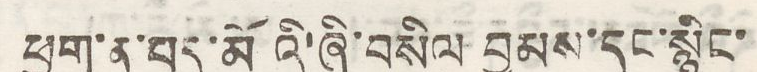ཕྱག་ན་པད་མོའི་ཞི་བསིལ བྱམས་དང་སྙིང་
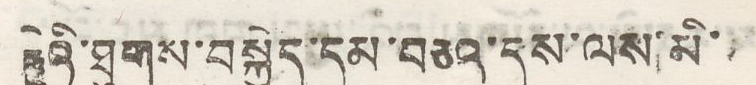རྗེའི་ཐུགས་བསྐྱེད་དམ་བཅའ་དུས་ལས་མི་
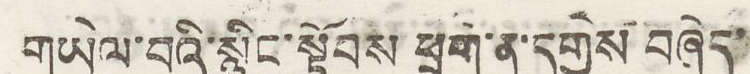གཡེལ་བའི་སྙིང་སྙོབས ཕྲག་ན་དགྱེས བཞེད་
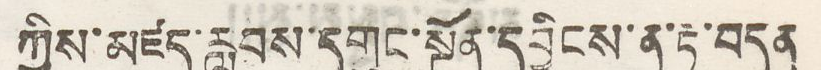ཀྱིས་མཛད་རླབས་དགུང་སྔོན་དབྱིངས་ན་རྟ་བདུན
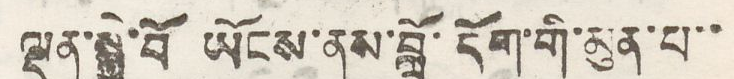ལྡན་སྐྱེ་བོ ཡོངས་ནས་བློ་དོག་གི་མུན་པ་་
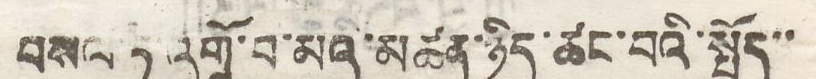བསལ་ཏེ་འགྲོ་བ་མའི་མཚན་ཉིད་ཚང་བའི་སྤྱོད་་
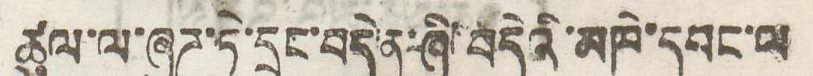ཚུལ་ལ་ཞུཌ་ཏེ་དྲང་བདེན་ཞི་བདེའི་མཁེ་དབང་ལ
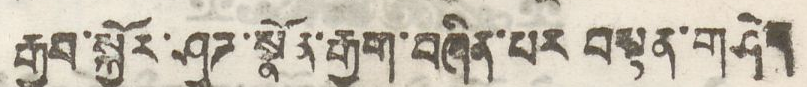རྒྱབ་སྐྱོར་ཤུཌ་སྣོན་རྒྱབ་བཞིན་པར བསྟན་གཤེད་
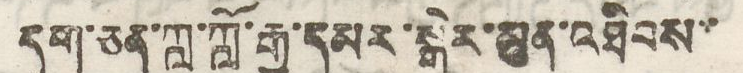དུག་ཅན་ཀླ་ཀློ་རྒྱ་དམར་སྒེར་མུན་འཐིབས་
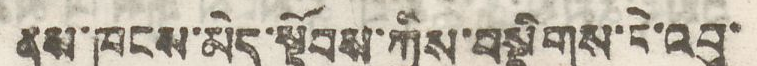ནས་ཁུངས་མེད་སྟོབས་ཀྱིས་བསྡིགས་ངེ་འབུ་
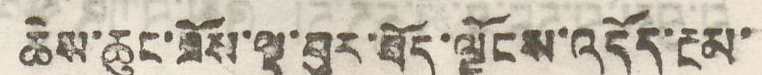ཆེས་ཆུང་ཟོས་ལྟ་བུར་བོད་ལྗོངས་འདོད་རྔམ་
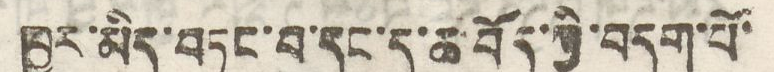ཁྱུར་མིད་བཏང་བ་དང་ད་ཆ་བོད་ཀྱི་བདག་པོ་
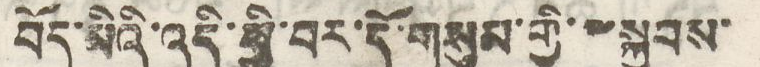བོད་མིའི་འདི་ཕྱི་བར་དོ་གསུམ་གྱི་༸སྐྱབས་
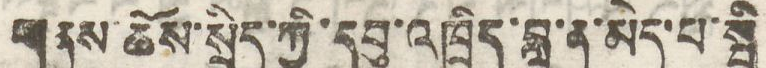གནས་ཆོས་སྲིད་ཀྱི་དབུ་འཁྲིད་བླ་ན་མེད་པ་སྤྱི
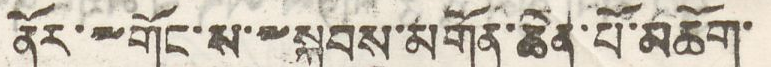ནོར་༸གོང་ས་༸སྐྱབས་མགོན་ཆེན་པོ་མཆོག་
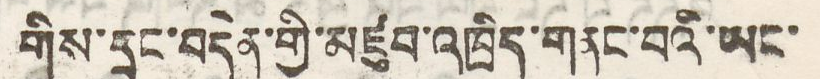གིས་དྲང་བདེན་གྱི་མཛུབ་འཁྲིད་གནང་བའི་ཡང་
